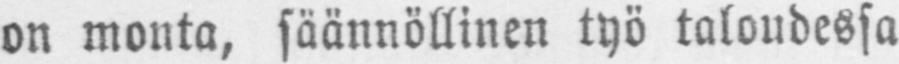on monta, säännöllinen työ taloudessa
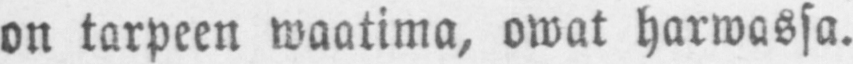on tarpeen waalima, owat harwassa.
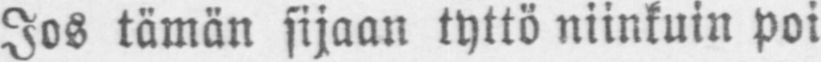Jos tämän sijaan tyttö niinkuin poi-
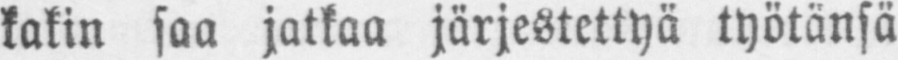kakin saa jatkaa järjestettyä työtänsä
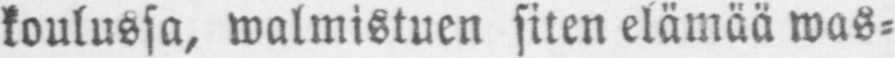koulussa, walmistuen siten elämää was-
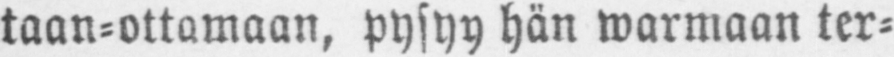taan-ottamaan, pysyy hän warmaan ter-
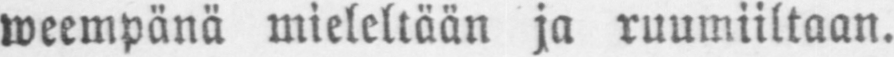weempänä mieleltään ja ruumiiltaan.
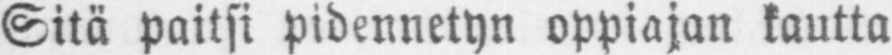Sitä paitsi pidennetyn oppiajan kautta
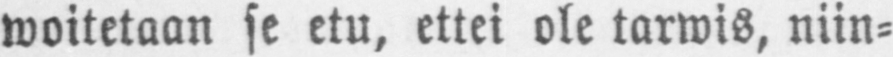woitetaan se etu, ettei ole tarwis, niin-
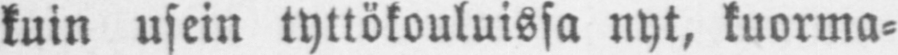kuin usein tyttökouluissa nyt, kuorma-
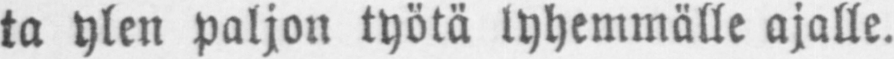ta ylen paljon työtä lyhemmälle ajalle.
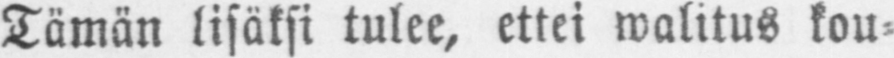Tämän lisäksi tulee, ettei walitus kou-
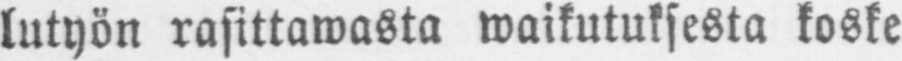lutyön rasittawasta waikutuksesta koske
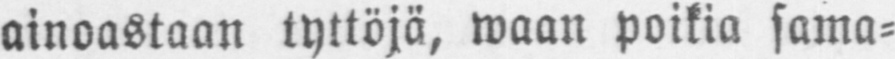ainoastaan tyttöjä, maan poikia sama-
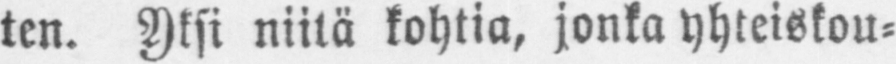ten. Yksi niitä kohtia, jonka yhteiskou-
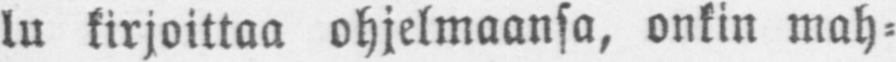lu kirjoittaa ohjelmaansa, onkin mah-
